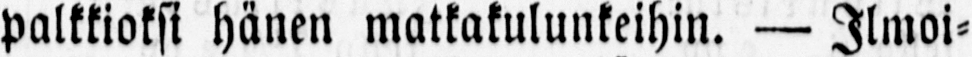palkkioksi hänen matkakulunkeihin. — Ilmoi-
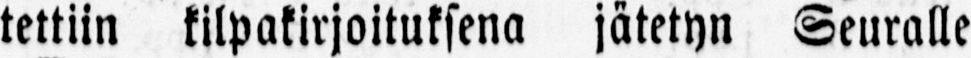tettiin kilpakirjoituksena jätetyn Seuralle
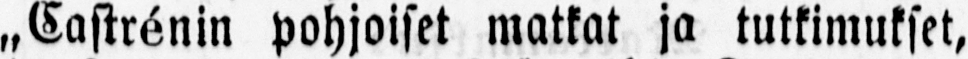„Castrénin pohjoiset matkat ja tutkimukset,
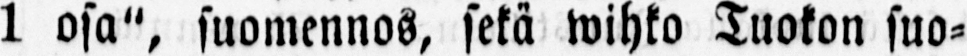1 osa", suomennos, sekä wihko Tuokon suo-
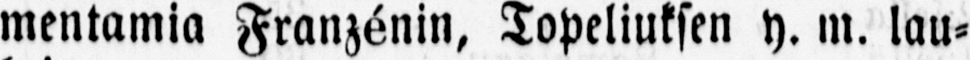mentamia Franzénin, Topeliuksen y. m. lau-
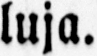luja.
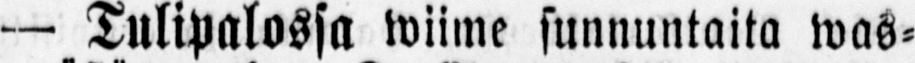— Tulipalossa wiime sunnuntaita was-
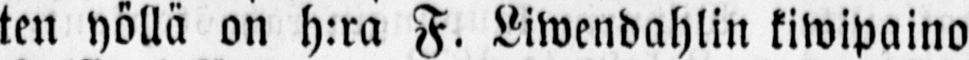ten yöllä on h:ra F. Liwendahlin kiwipaino
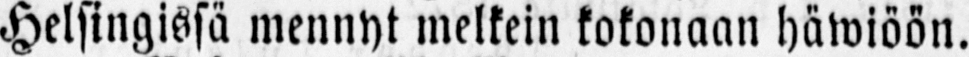Helsingissä mennyt melkein kokonaan häwiöön.
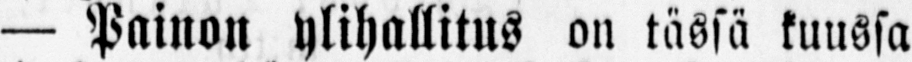— Painon ylihallitus on tässä kuussa
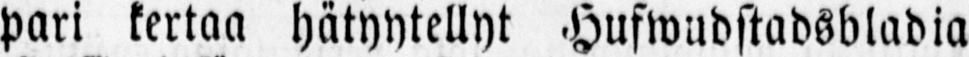pari kertaa hätyytellyt Hufwudstadsbladia
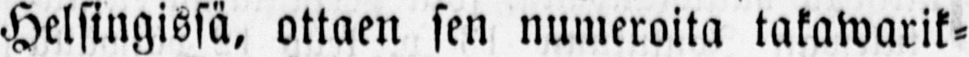Helsingissä, ottaen sen numeroita takawarik-
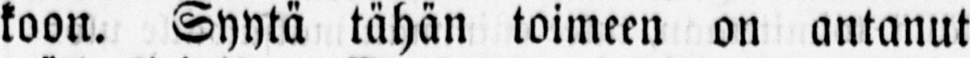koon. Syytä tähän toimeen on antanut
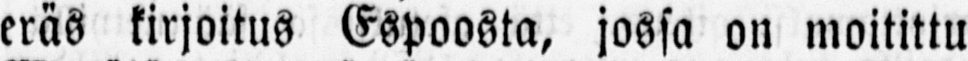eräs kirjoitus Espoosta, jossa on moitittu
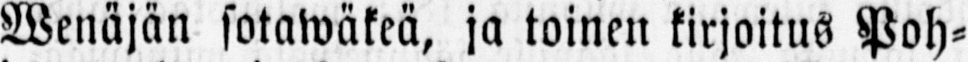Wenäjän sotawäkeä, ja toinen kirjoitus Poh-
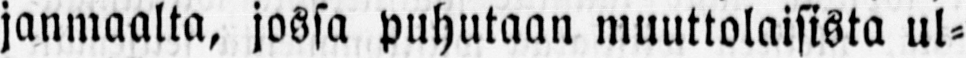janmaalta, jossa puhutaan muuttolaisista ul-
